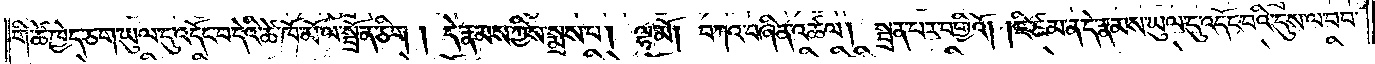གི་ཚེ་ཁྱེད་ཅག་ཡུལ་དུ་འདོང་བ་དེའི་ཚེ་ཁོ་མོ་ལ་སྦྲོན་ཅིག །དེ་རྣམས་ཀྱིས་སྨྲས་པ། ལྷ་མོ། བཀའ་བཞིན་འཚལ། སྦྲན་པར་བགྱིའོ། །ཇི་ཙམ་ན་དེ་རྣམས་ཡུལ་དུ་འདོང་བའི་དུས་ལ་བབ་
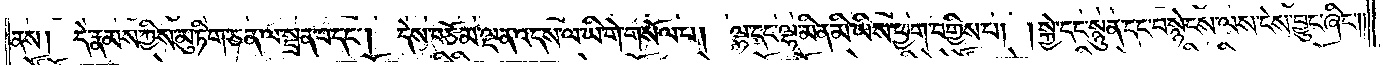ནས། དེ་རྣམས་ཀྱིས་མུ་ཏིག་ཅན་ལ་སྦྲན་པ་དང༌། དེས་བཅོམ་ལྡན་འདས་ལ་ཡི་གེ་གསོལ་པ། ལྷ་དང་ལྷ་མིན་མི་ཡིས་ཕྱག་བགྱིས་པ། །སྐྱེ་དང་སྙུན་དང་བསྙེངས་ལས་ངེས་བྱུང་ཞིང༌༎
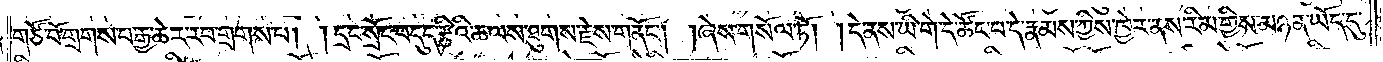གཙོ་བོ་གྲགས་པ་རྒྱ་ཆེར་རབ་གྲགས་པ། །དྲང་སྲོང་བདུད་རྩིའི་ཆ་ལས་ཐུགས་རྗེས་གནོང༌། །ཞེས་གསོལ་ཏོ། །དེ་ནས་ཡི་གེ་དེ་ཚོང་པ་དེ་རྣམས་ཀྱིས་ཁྱེར་ནས་རིམ་གྱིས་མཉན་ཡོད་དུ་
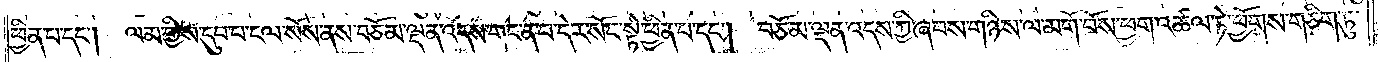ཕྱིན་པ་དང༌། ལམ་གྱིས་དུབ་པ་ངལ་སོས་ནས་བཅོམ་ལྡན་འདས་གང་ན་བ་དེར་སོང་སྟེ་ཕྱིན་པ་དང༌། བཅོམ་ལྡན་འདས་ཀྱི་ཞབས་གཉིས་ལ་མགོ་བོས་ཕྱག་འཚལ་ཏེ་ཕྱོགས་གཅིག་ཏུ་
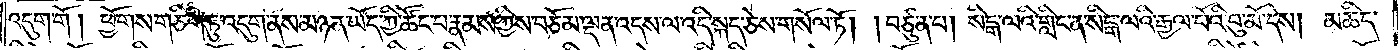འདུག་གོ །ཕྱོགས་གཅིག་ཏུ་འདུག་ནས་མཉན་ཡོད་ཀྱི་ཚོང་པ་རྣམས་ཀྱིས་བཅོམ་ལྡན་འདས་ལ་འདི་སྐད་ཅེས་གསོལ་ཏོ། །བཙུན་པ། སིངྒ་ལའི་གླིང་ན་སིངྒ་ལའི་རྒྱལ་པོའི་བུ་མོ་དེས། མཆིད་
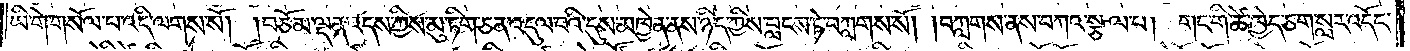ཡི་གེ་གསོལ་བ་འདི་ལགས་སོ། །བཅོམ་ལྡན་འདས་ཀྱིས་མུ་ཏིག་ཅན་འདུལ་བའི་དུས་མཁྱེན་ནས་ཉིད་ཀྱིས་བླངས་ཏེ་བཀླགས་སོ། །བཀླགས་ནས་བཀའ་སྩལ་པ། གང་གི་ཚེ་ཁྱེད་ཅག་སླར་འདོང་
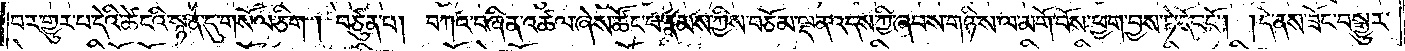བར་གྱུར་པ་དེའི་ཚེ་ངའི་སྙན་དུ་གསོལ་ཅིག །བཙུན་པ། བཀའ་བཞིན་འཚལ་ཞེས་ཚོང་པ་རྣམས་ཀྱིས་བཅོམ་ལྡན་འདས་ཀྱི་ཞབས་གཉིས་ལ་མགོ་བོས་ཕྱག་བྱས་ཏེ་དོང་ངོ༌། །དེ་ནས་ཟོང་བསྒྱུར་
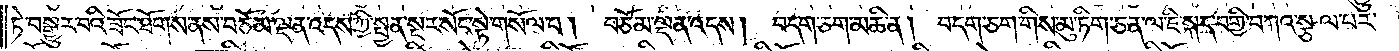ཏེ་བསྒྱུར་བའི་ཟོང་ཐོགས་ནས་བཅོམ་ལྡན་འདས་ཀྱི་སྤྱན་སྔར་སོང་སྟེ་གསོལ་བ། བཅོམ་ལྡན་འདས། བདག་ཅག་མཆི་ན། བདག་ཅག་གིས་མུ་ཏིག་ཅན་ལ་ཇི་སྐད་བགྱི་བཀའ་སྩལ་པར་
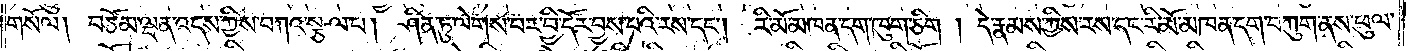གསོལ། བཅོམ་ལྡན་འདས་ཀྱིས་བཀའ་སྩལ་པ། ཤིན་ཏུ་ལེགས་པར་བྱི་དོར་བྱས་པའི་རས་དང༌། རི་མོ་མཁན་དག་ཁུག་ཅིག །དེ་རྣམས་ཀྱིས་རས་དང་རི་མོ་མཁན་དག་བཀུག་ནས་ཕུལ་
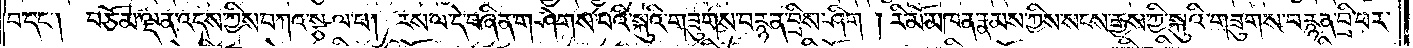བ་དང༌། བཅོམ་ལྡན་འདས་ཀྱིས་བཀའ་སྩལ་པ། རས་ལ་དེ་བཞིན་གཤེགས་བའི་སྐུའི་གཟུགས་བརྙན་བྲིས་ཤིག །རི་མོ་མཁན་རྣམས་ཀྱིས་སངས་རྒྱས་ཀྱི་སྐུའི་གཟུགས་བརྙན་བྲི་བར་
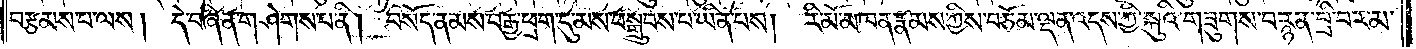བརྩམས་པ་ལས། དེ་བཞིན་གཤེགས་པ་ནི། བསོད་ནམས་བརྒྱ་ཕྲག་དུ་མས་བསྒྲུབས་པ་ཡིན་པས། རི་མོ་མཁན་རྣམས་ཀྱིས་བཅོམ་ལྡན་འདས་ཀྱི་སྐུའི་གཟུགས་བརྙན་བྲི་བར་མ་
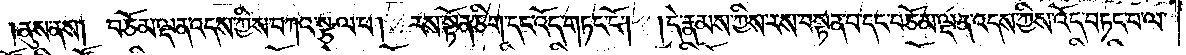།ནུས་ནས། བཅོམ་ལྡན་འདས་ཀྱིས་བཀའ་སྩལ་པ། རས་སྟོན་ཅིག་དང་འོད་གཏང་ངོ༌། །དེ་རྣམས་ཀྱིས་རས་བསྟན་པ་དང་བཅོམ་ལྡན་འདས་ཀྱིས་འོད་བཏང་བ་ལ་
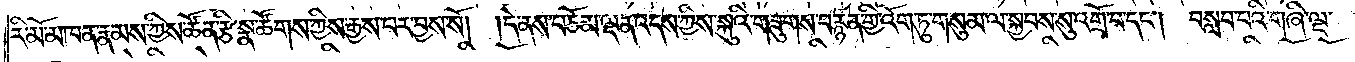རི་མོ་མཁན་རྣམས་ཀྱིས་ཚོན་རྩི་སྣ་ཚོགས་ཀྱིས་རྒྱས་པར་བྱས་སོ། །དེ་ནས་བཅོམ་ལྡན་འདས་ཀྱིས་སྐུའི་གཟུགས་བརྙན་གྱི་འོག་ཏུ་གསུམ་ལ་སྐྱབས་སུ་འགྲོ་བ་དང༌། བསླབ་པའི་གཞི་ལྔ་
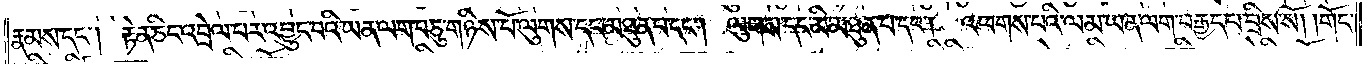རྣམས་དང༌། རྟེན་ཅིང་འབྲེལ་བར་འབྱུང་བའི་ཡན་ལག་བཅུ་གཉིས་པོ་ལུགས་དང་མཐུན་པ་དང༌། ལུགས་དང་མི་མཐུན་པ་དང༌། འཕགས་པའི་ལམ་ཡན་ལག་བརྒྱད་པ་བྲིས་སོ། །གོང་
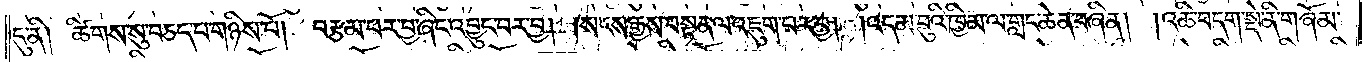དུ་ནི། ཚིགས་སུ་བཅད་པ་གཉིས་པོ། བརྩམ་པར་བྱ་ཞིང་འབྱུང་བར་བྱ། །སངས་རྒྱས་བསྟན་ལ་འཇུག་པར་བྱ། །འདམ་བུའི་ཁྱིམ་ལ་གླང་ཆེན་བཞིན། །འཆི་བདག་སྡེ་ནི་གཞོམ་
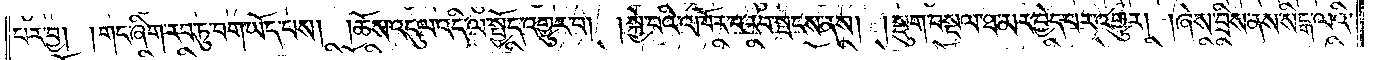པར་བྱ། །གང་ཞིག་རབ་ཏུ་བག་ཡོད་པས། །ཆོས་འདུལ་འདི་ལ་སྤྱོད་འགྱུར་བ། །སྐྱེ་བའི་འཁོར་བ་རབ་སྤངས་ནས། །སྡུག་བསྔལ་ཐ་མར་བྱེད་པར་འགྱུར། །ཞེས་བྲིས་ནས་སིངྒ་ལའི་
